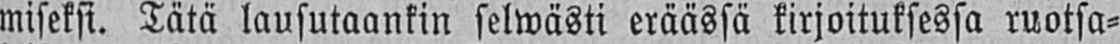miseksi. Tätä lausutaankin selwästi eräässä kirjoituksessa ruotsa-
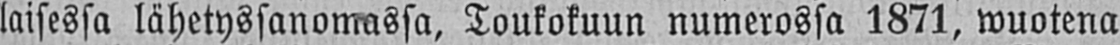laisessa lähetyssanomassa, Toukokuun numerossa 1871, wuotena
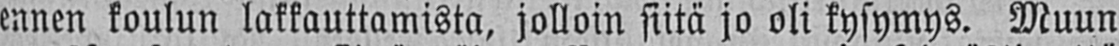ennen koulun lakkauttamista, jolloin siitä jo oli kysymys. Muun
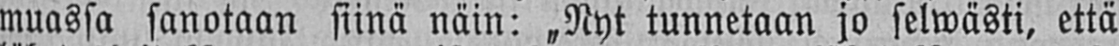muassa sanotaan siinä näin: „Nyt tunnetaan jo selwästi, että
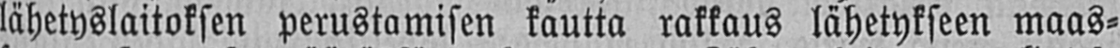lähetyslaitoksen perustamisen kautta rakkaus lähetykseen maas-
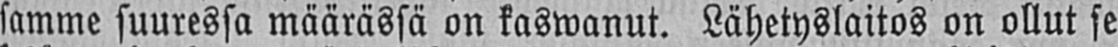samme suuressa määrässä on kaswanut. Lähetyslaitos on ollut se
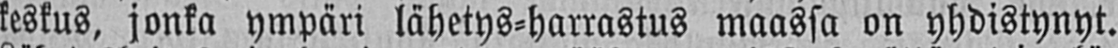keskus, jonka ympäri lähetys-harrastus maassa on yhdistynyt.
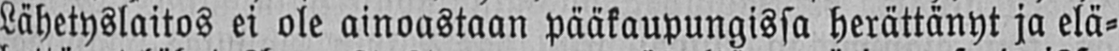Lähetyslaitos ei ole ainoastaan pääkaupungissa herättänyt ja elä-
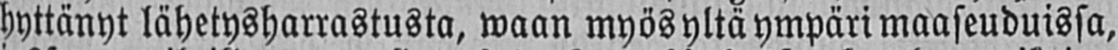hyttänyt lähetysharrastusta, waan myös yltä ympäri maaseuduissa,
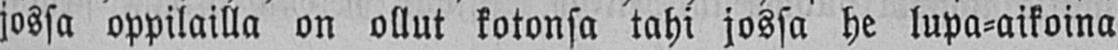jossa oppilailla on ollut kotonsa tahi jossa he lupa-aikoina
